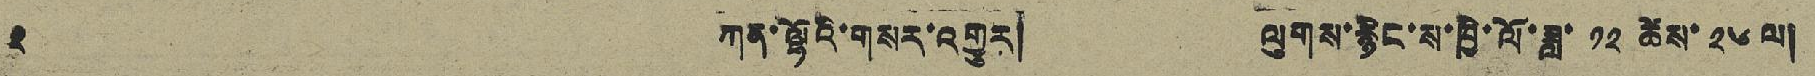༢ ཀན་ལྷོའི་གསར་འགྱུར། ལུགས་རྙིང་ས་ཁྱི་ལོ་ཟླ་ ༡༢ ཚེས་ ༢༦ ལ།
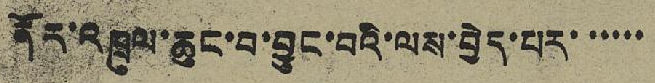ནོར་འཁྲུལ་ཆུང་བ་བྱུང་བའི་ལས་བྱེད་པར་་་་་་
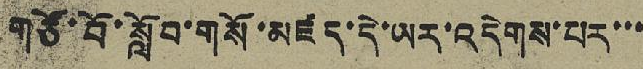གཙོ་བོ་སློབ་གསོ་མཛད་དེ་ཡར་འདེགས་པར་་་
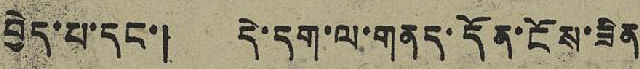བྱེད་པ་དང་། དེ་དག་ལ་གནད་དོན་ངོས་ཟིན
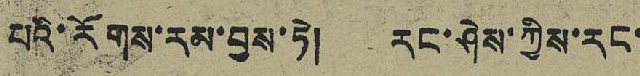པའི་རོགས་རམ་བྱས་ཏེ། རང་ཤེས་ཀྱིས་རང་
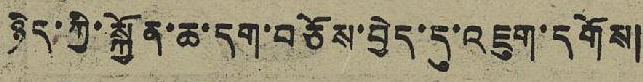ཉིད་ཀྱི་སྐྱོན་ཆ་དག་བཅོས་བྱེད་དུ་འཇུག་དགོས།
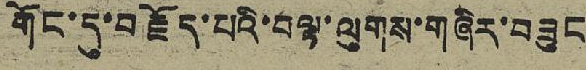གོང་དུ་བརྗོད་པའི་བལྟ་ལུགས་གཞིར་བཟུང
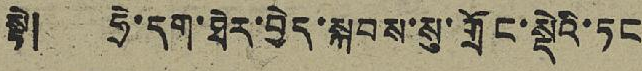སྟེ། ཧྲེ་དག་ཐེར་བྱེད་སྐབས་སུ་གྲོང་སྡེའི་ཏང
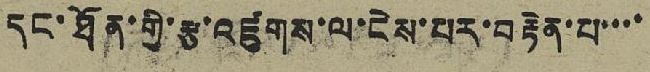དང་ཐོན་གྱི་རྩ་འཛུགས་ལ་ངེས་པར་བརྟེན་པ་་་་
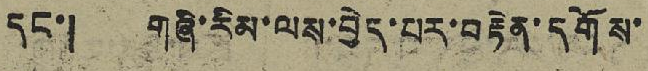དང་། གཞི་རིམ་ལས་བྱེད་པར་བརྟེན་དགོས་
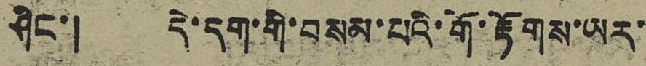ཤིང་། དེ་དག་གི་བསམ་པའི་གོ་རྟོགས་ཡར་
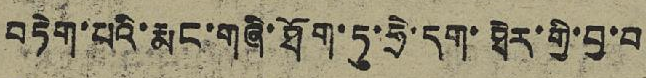བཏེག་པའི་རྨང་གཞི་ཐོག་ཏུ་ཧྲེ་དག་ཐེར་གྱི་བྱ་བ
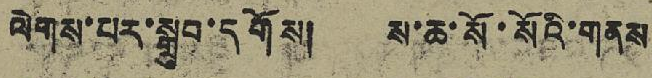ལེགས་པར་སྒྲུབ་དགོས། ས་ཆ་སོ་སོའི་གནས
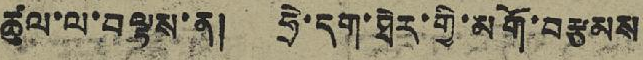ཚུལ་ལ་བལྟས་ན། ཧྲེ་དག་ཐེར་གྱི་མགོ་བརྩམས
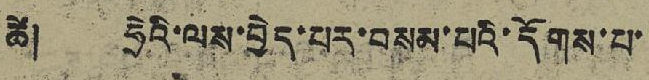ཚེ། ཧྲེའི་ལས་བྱེད་པར་བསམ་པའི་དོགས་པ་
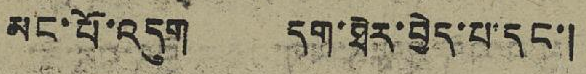མང་པོ་འདུག དག་ཐེར་བྱེད་པ་དང་།
